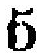5
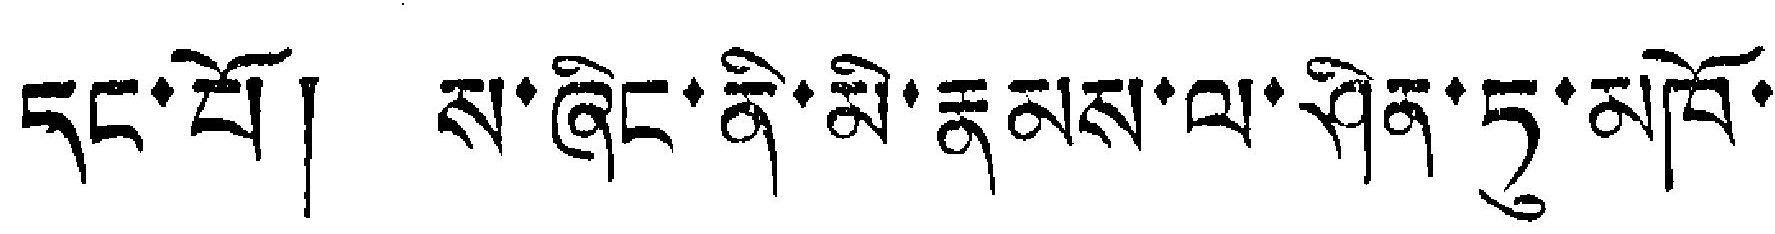དང་པོ། ས་ཞིང་ནི་མི་རྣམས་ལ་ཤིན་ཏུ་མཁོ་
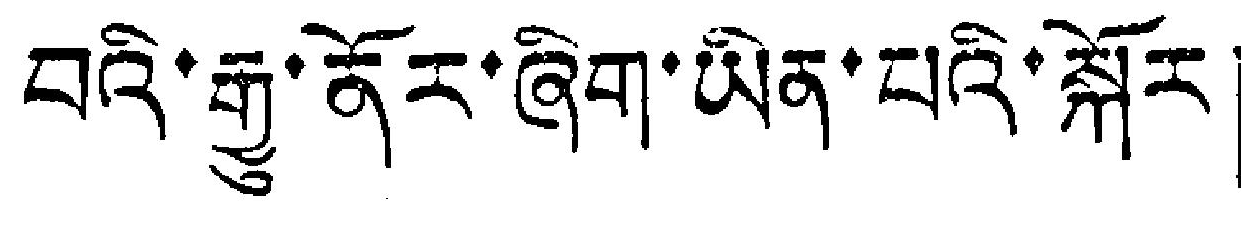བའི་རྒྱུ་ནོར་ཞིག་ཡིན་པའི་སྐོར།
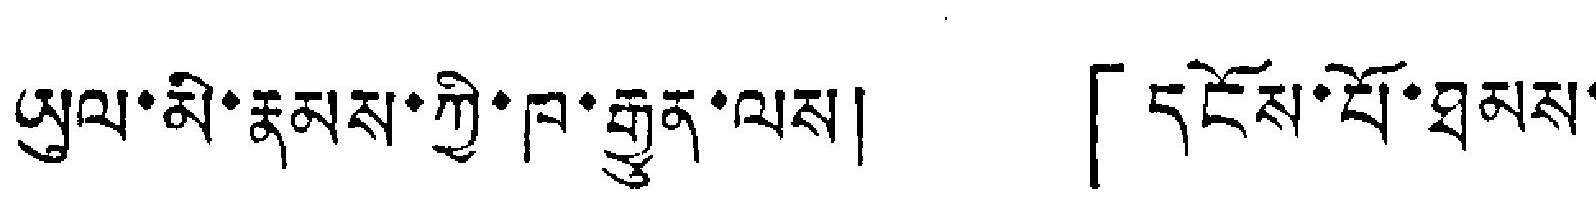ཡུལ་མི་རྣམས་ཀྱི་ཁ་རྒྱུན་ལས། 「དངོས་པོ་ཐམས་
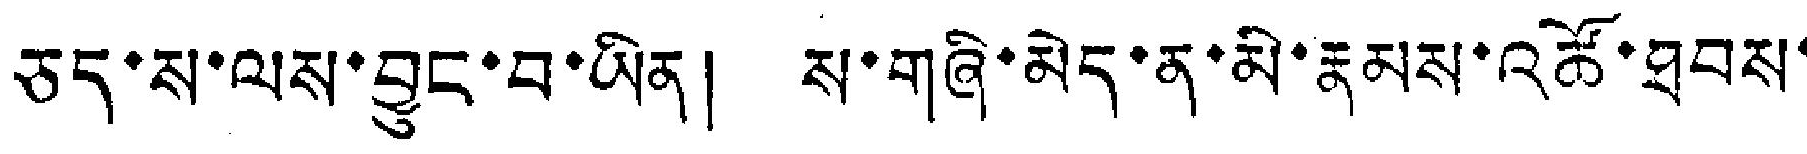ཅད་ས་ལས་བྱུང་བ་ཡིན། ས་གཞི་མེད་ན་མི་རྣམས་འཚོ་ཐབས་
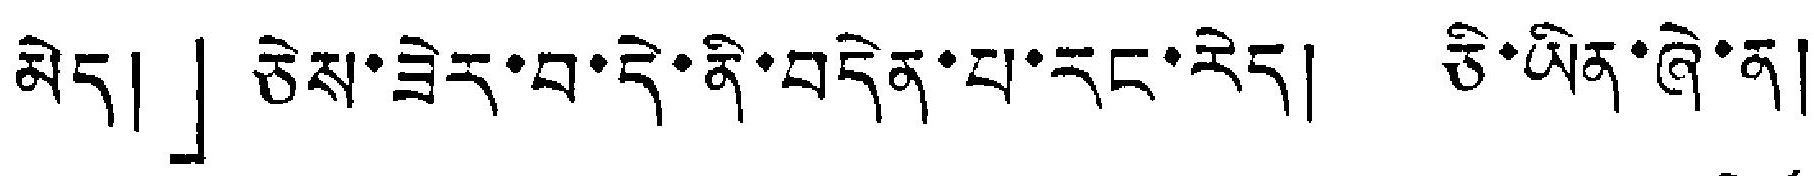མེད།」ཅེས་ཟེར་བ་དེ་ནི་བདེན་པ་རང་རེད། ཅི་ཡིན་ཞེ་ན།
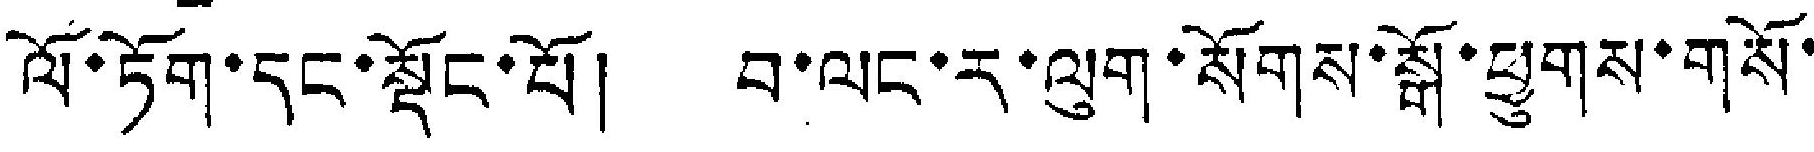ལོ་ཏོག་དང་སྡོང་པོ། བ་ལང་ར་ལུག་སོགས་སྒོ་ཕྱུགས་གསོ་
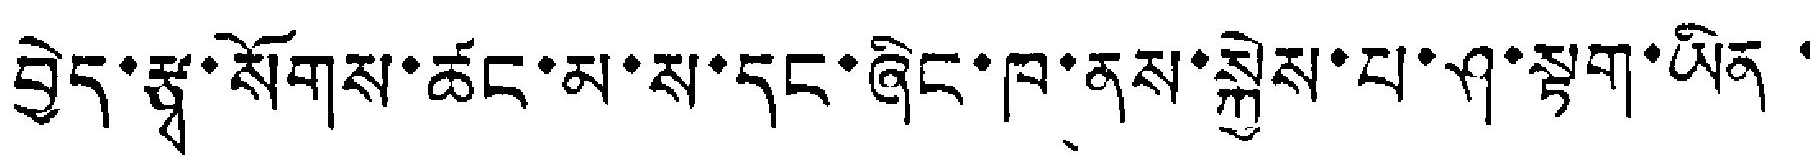བྱེད་རྩྭ་སོགས་ཚང་མ་ས་དང་ཞིང་ཁ་ནས་སྐྱེས་པ་ཤ་སྟག་ཡིན་
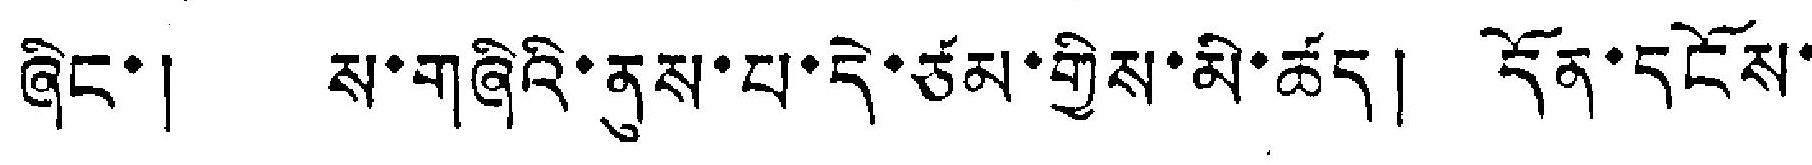ཞིང་། ས་གཞིའི་ནུས་པ་དེ་ཙམ་གྱིས་མི་ཚད། དོན་དངོས་
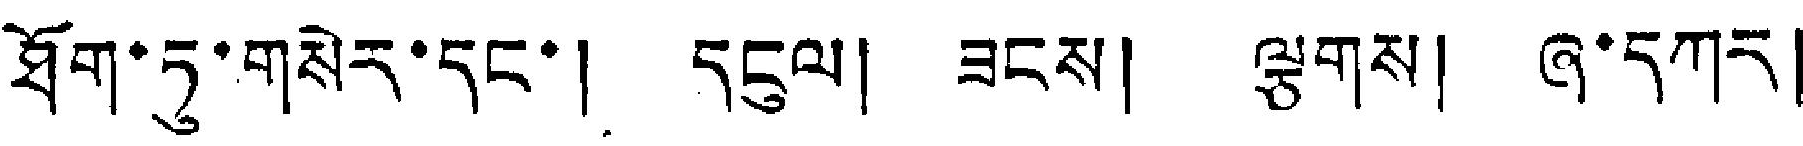ཐོག་ཏུ་གསེར་དང་། དངུལ། ཟངས། ལྕགས། ཞ་དཀར།
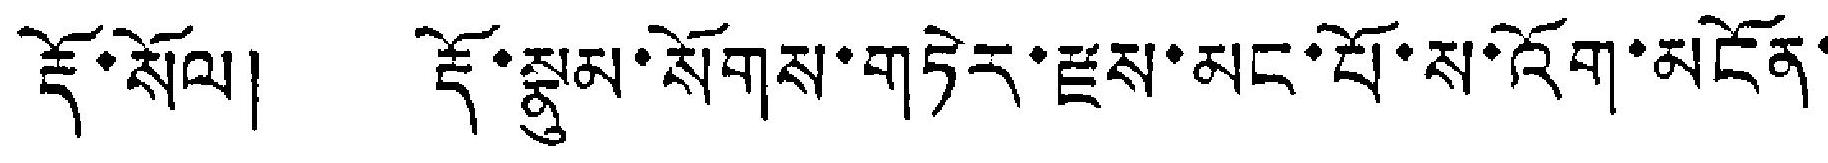རྡོ་སོལ། རྡོ་སྣུམ་སོགས་གཏེར་རྫས་མང་པོ་ས་འོག་མངོན་
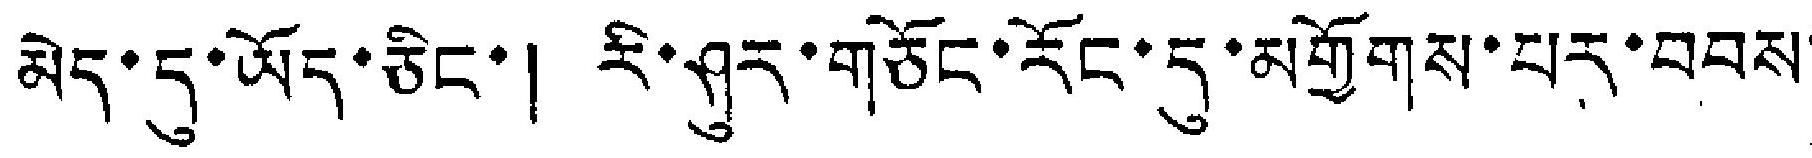མེད་དུ་ཡོད་ཅིང་། རི་ཤུར་གཅོང་རོང་དུ་མགྱོགས་པར་བབས་
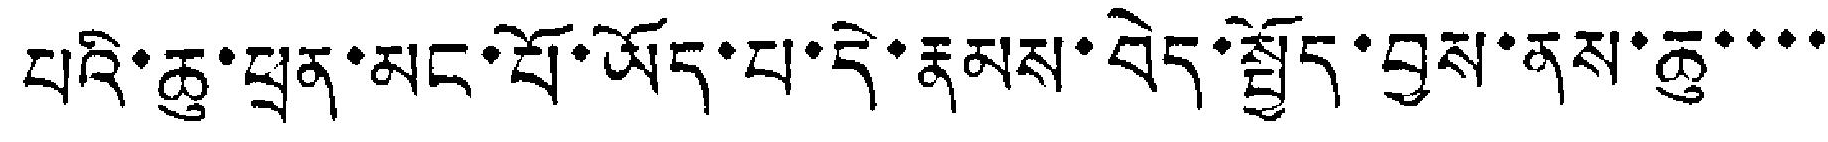པའི་ཆུ་ཕྲན་མང་པོ་ཡོད་པ་དེ་རྣམས་བེད་སྤྱོད་བྱས་ནས་ཆུ་་་་
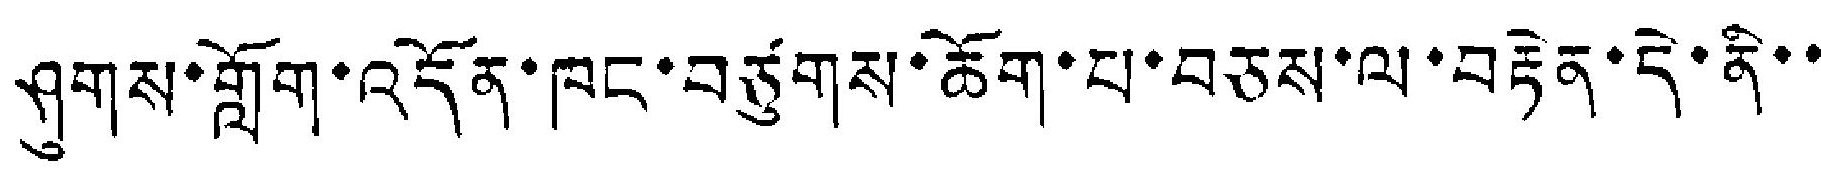ཤུགས་ཀློག་འདོན་ཁང་བཙུགས་ཆོག་པ་བཅས་ལ་བརྟེན་དེ་ནི་་
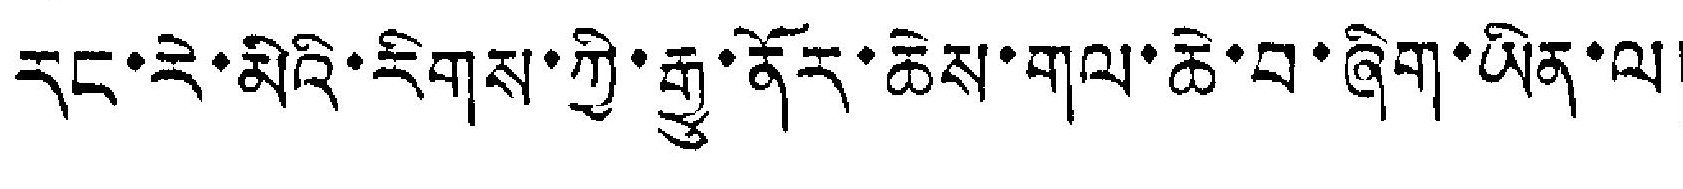རང་རེ་མིའི་རིགས་ཀྱི་རྒྱུ་ནོར་ཆེས་གལ་ཆེ་བ་ཞིག་ཡིན་ལ།
